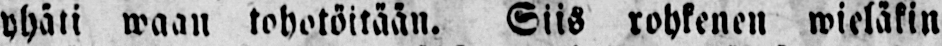yhäti waan tohotöitään. Siis rohkenen wieläkin
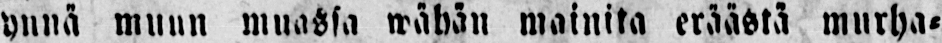ynnä muun muassa wähän mainita eräästä murha-
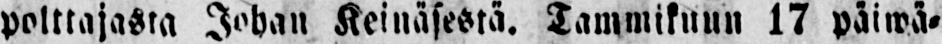polttajasta Johan Keinäsestä. Tammikuun 17 päiwä-
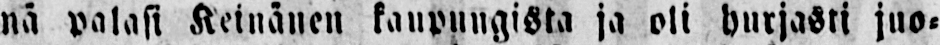nä palasi Keinänen kaupungista ja oli hurjasti juo-
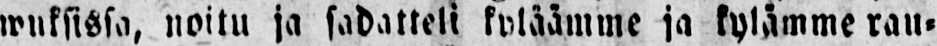wuksissa, noitu ja sadatteli kyläämme ja kylämme rau-
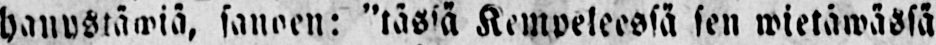hanystäwiä, sanoen: "tässä Kempeleessä sen wietäwässä
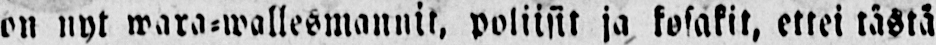on nyt wara-wallesmannit, poliisit ja kosakit, ettei tästä
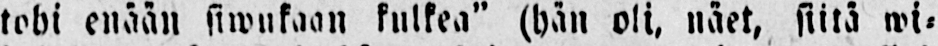tohi enään siwukaan kulkea" (hän oli, näet, siitä wi-
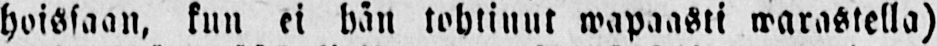hoisaan, kuu ei hän tohtinut wapaasti warastella)
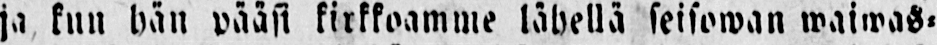ja kuu hän pääsi kirkkoamme lähellä seisowan waiwas-
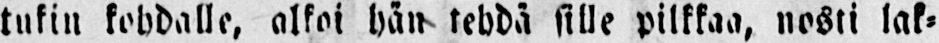tukin kohdalle, alkoi hän tehdä sille pilkkaa, nosti lak-
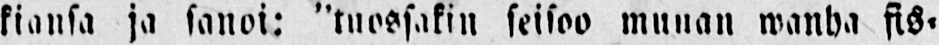kiansa ja sanoi: "tuossakin seisoo muuan wanha fis-
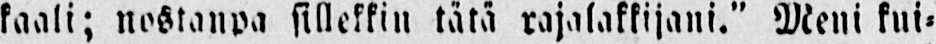kaali; nostanpa sillekkin tätä rajalakkijani." Meni kui-
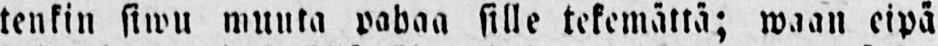tenkin siwu muuta pahaa sille tekemättä; waan eipä
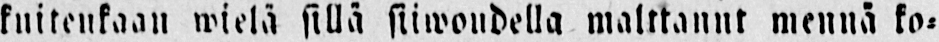kuiteukaan wielä sillä siiwoudella malttannt mennä ko-
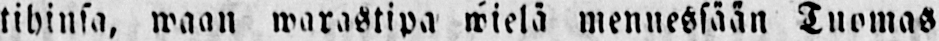tihinsa, waan warastipa wielä mennessään Tuomas
